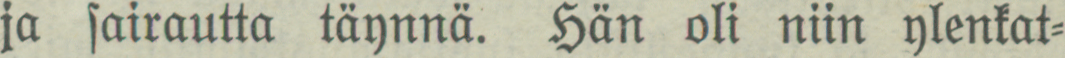ja sairautta täynnä. Hän oli niin ylenkat-
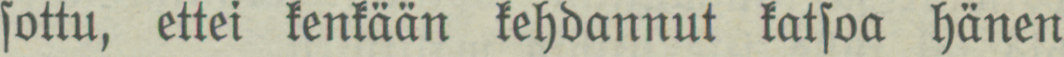sottu, ettei kenkään kehdannut katsoa hänen
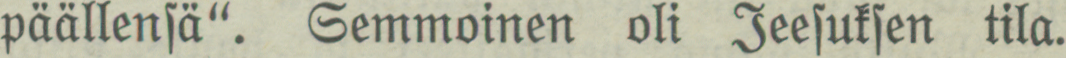päällensä". Semmoinen oli Jeesuksen tila.
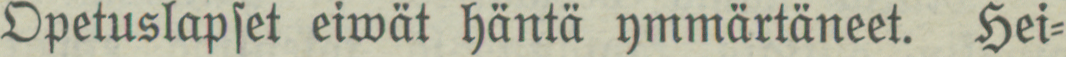Opetuslapset eiwät häntä ymmärtäneet. Hei-
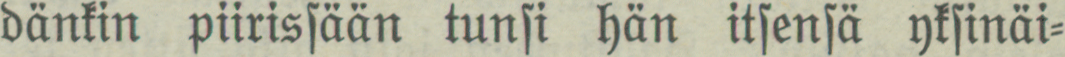dänkin piirissään tunsi hän itsensä yksinäi-
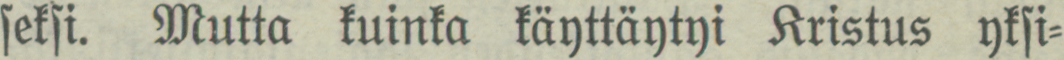seksi. Mutta kuinka käyttäytyi Kristus yksi-
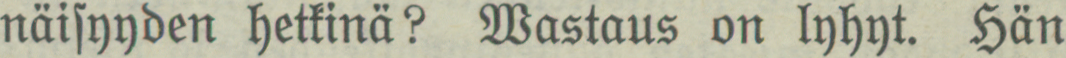näisyyden hetkinä? Wastaus on lyhyt. Hän
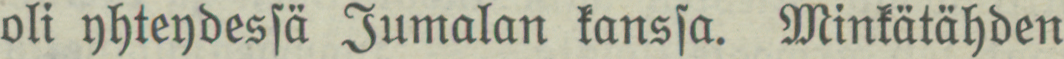oli yhteydessä Jumalan kanssa. Minkätähden
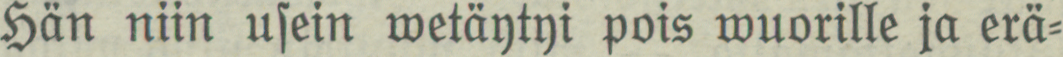Hän niin usein wetäytyi pois wuorille ja erä-
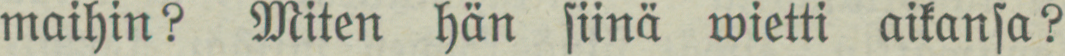maihin? Miten hän siinä wietti aikansa?
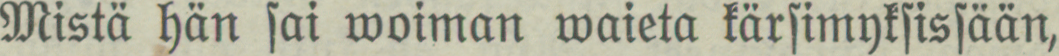Mistä hän sai woiman waieta kärsimyksissään,
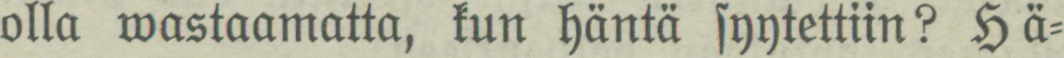olla wastaamatta, kun häntä syytettiin? Hä-
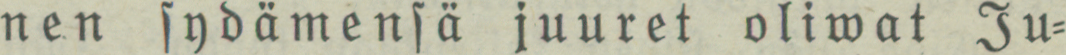nen sydämensä juuret oliwat Ju-
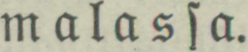malassa.
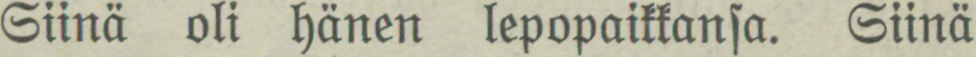Siinä oli hänen lepopaikkansa. Siinä
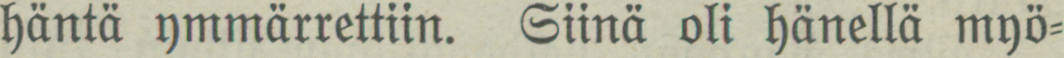häntä ymmärrettiin. Siinä oli hänellä myö-
